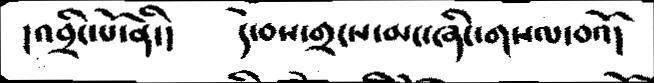།འབྲིང་པོ་ནི་།   དེ་བས་གྲངས་མང་ཞིང་གསལ་བའོ།
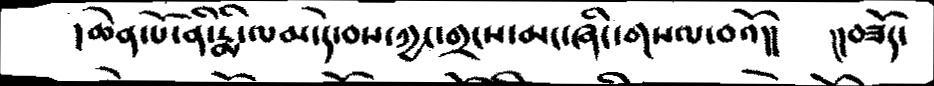།ཆེན་པོ་ནི་རྨི་ལམ་དེ་བས་ཀྱང་གྲངས་མང་ཞིང་གསལ་བའོ།།    །།བཟོད་
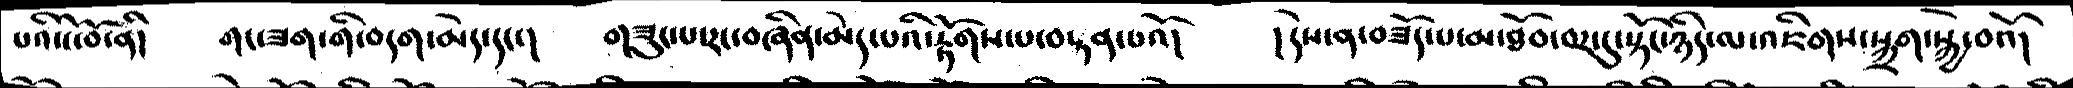པའི་ངོ་བོ་ནི།  གང་ཟག་གི་བདག་མེད་དང་།   གཟུང་པ་རང་བཞིན་མེད་པའི་རྟོགས་པ་བསྟན་པའོ།   །དེས་ན་བཟོད་པ་མ་ཐོབ་བར་དུ་སྟོང་ཉིད་ལ་འཇིགས་སྐྲག་སྐྱེ་བའོ།
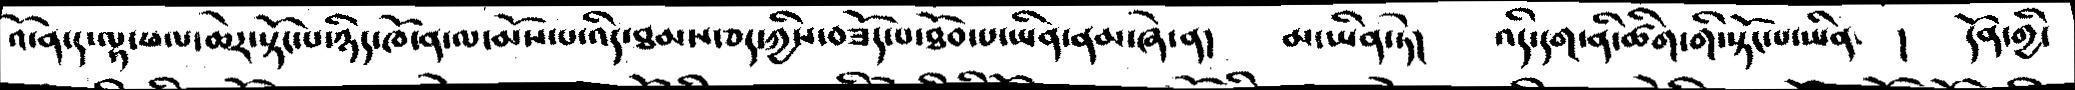འོ་ན་ད་ལྟ་ཕལ་ཆེར་སྟོང་པ་ཉིད་ཁོ་ན་ལ་མོས་པ་འདི་ཐམས་ཅད་ཀྱིས་བཟོད་པ་ཐོབ་པ་ཡིན་ནམ་ཞེ་ན་།   མ་ཡིན་ཏེ།   འདི་དག་ནི་ཚིག་གི་སྟོང་པ་ཡིན་  །  དོན་གྱི་
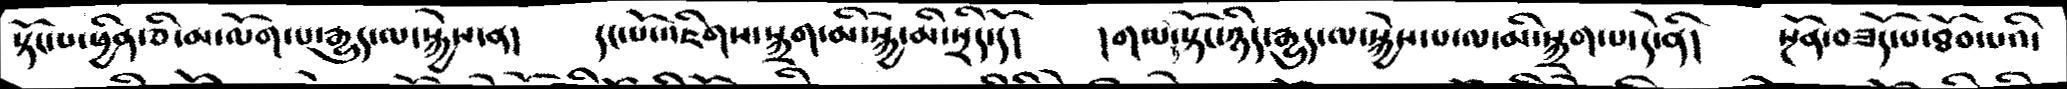སྟོང་པ་ཕྱིན་ཅི་མ་ལོག་པ་རྒྱུད་ལ་སྐྱེས་ན།   དང་པོ་འཇིགས་སྐྲག་མི་སྐྱེ་མི་སྲིད་དོ།    གལ་ཏེ་སྟོང་ཉིད་རྒྱུད་ལ་སྐྱེས་པ་ལ་མི་སྐྲག་པ་དེ་ནི།   སྔོན་བཟོད་པ་ཐོབ་པའི་
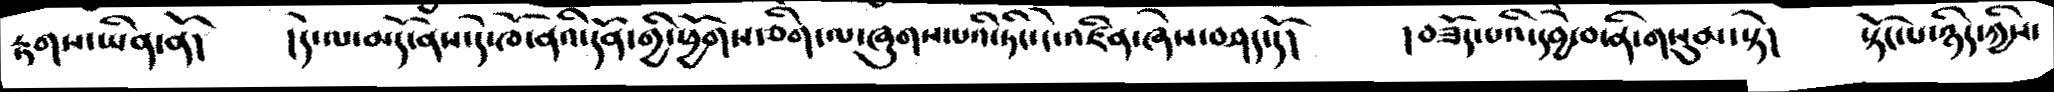རྟགས་ཡིན་ནོ།   །དེ་ལ་མོད་ནས་དེ་ཁོ་ནའི་དོན་གྱི་ཕྱོགས་ཅིག་པ་ཞུགས་པའི་ཏིང་ངེ་འཛིན་ཞེས་བཤད་དོ།   །བཟོད་པའི་དབྱེ་བ་ནི་གསུམ་སྟེ།   སྟོང་པ་ཉིད་ཀྱིས་
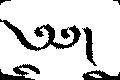༄༅།
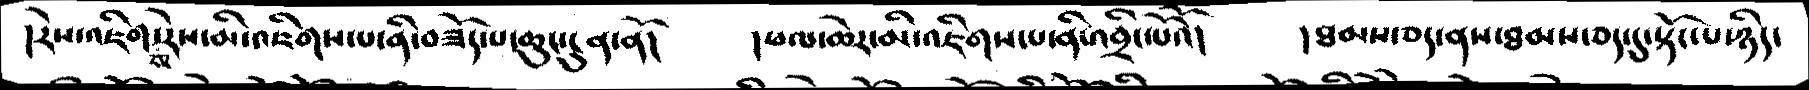།རེས་འཇིགས་རེས་མི་འཇིགས་པ་ནི་བཟོད་པ་ཆུང་ངུན་ནོ།   །ཕལ་ཆེར་མི་འཇིགས་པ་ནི་འབྲིང་པོའོ།   །ཐམས་ཅད་ནས་ཐམས་ཅད་དུ་སྟོང་པ་ཉིད་
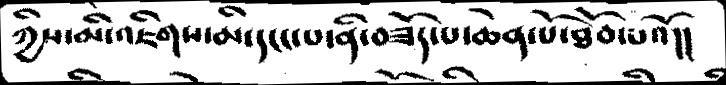ཀྱིས་མི་འཇིགས་མི་དངང་པ་ནི་བཟོད་པ་ཆེན་པོ་ཐོབ་པའོ།།
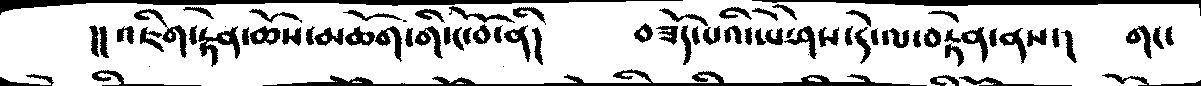།།འཇིག་རྟེན་ཆོས་མཆོག་གི་ངོ་བོ་ནི།   བཟོད་པའི་ཡེ་ཤེས་དེ་ལ་བརྟེན་ནས་།  གང་
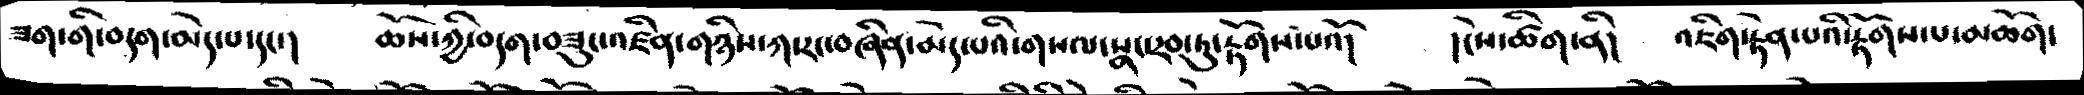ཟག་གི་བདག་མེད་པ་དང་།   ཆོས་ཀྱི་བདག་བཟུང་འཛིན་གཉིས་ཀ་རང་བཞིན་མེད་པའི་གསལ་སྣང་རབ་ཏུ་རྟོགས་པའོ།   །ངེས་ཚིག་ནི།   འཇིག་རྟེན་པའི་རྟོགས་པ་མཆོག་
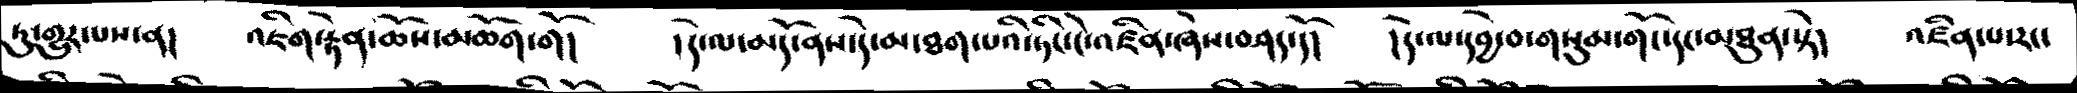ཏུ་གྱུར་པས་ན།   འཇིག་རྟེན་ཆོས་མཆོག་གོ།   །དེ་ལ་མདོ་ནས་དེ་མ་ཐག་པའི་ཏིང་ངེ་འཛིན་ཞེས་བཤད་དོ།  །དེ་ལ་དབྱེ་བ་གསུམ་གོང་དང་མཐུན་སྟེ།   འཛིན་པ་རང་
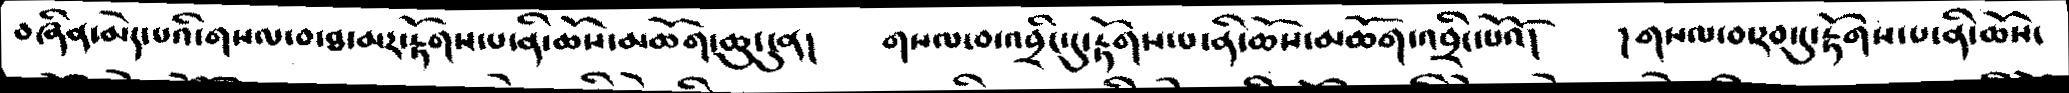བཞིན་མེད་པའི་གསལ་བ་ཐ་མར་རྟོགས་པ་ནི་ཆོས་མཆོག་ཆུ་ངུན།   གསལ་བ་འབྲིང་དུ་རྟོགས་པ་ནི་ཆོས་མཆོག་འབྲིང་པོའོ།   །གསལ་བ་རབ་ཏུ་རྟོགས་པ་ནི་ཆོས་
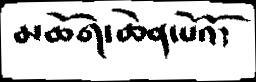མཆོག་ཆེན་པོའོ།
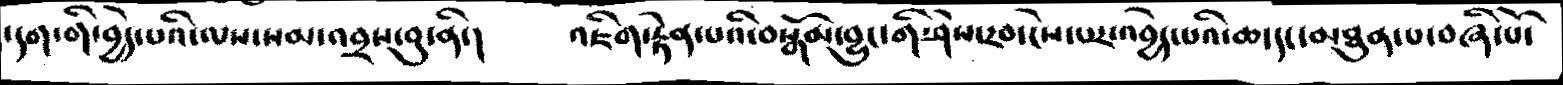་དག་གི་བྱེད་པའི་ལས་སམ་འབྲས་བུ་ནི་།     འཇིག་རྟེན་པའི་བསྒོམ་བྱུང་གི་ཤེས་རབ་ངེས་པར་འབྱེད་པའི་ཆ་དང་མཐུན་པ་བཞི་པོ་
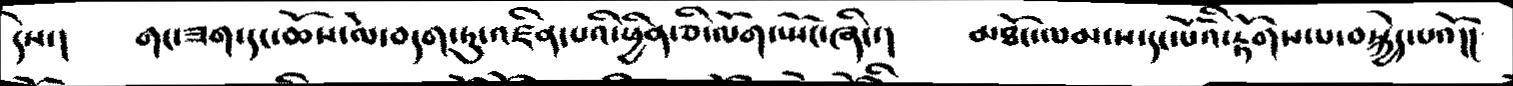དེས་།     གང་ཟག་དང་ཆོས་ལ་བདག་ཏུ་འཛིན་པའི་ཕྱིན་ཅི་ལོག་སྤོང་ཞིང་།     མཐོང་ལམ་ས་དང་པོའི་རྟོགས་པ་བསྐྱེད་པའོ།།
